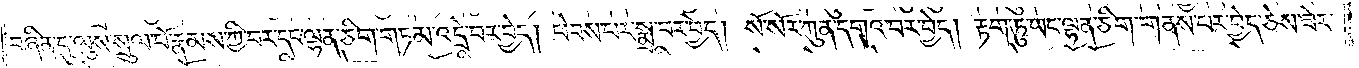བཞིན་དུ་ལུས་སྲུལ་པོ་རྣམས་ཀྱི་བར་དང་ལྷན་ཅིག་གཏམ་འདྲེ་བར་བྱེད། ཕེབས་པར་སྨྲ་བར་བྱེད། སོ་སོར་ཀུན་དགའ་བར་བྱེད། རྟག་ཏུ་ཡང་ལྷན་ཅིག་གནས་པར་བྱེད་ཅེས་ཟེར་
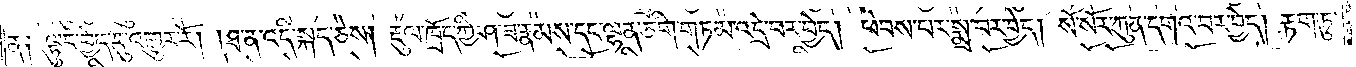ན༑ ལྟུང་བྱེད་དུ་འགྱུར་རོ། །ཐ་ན་འདི་སྐད་ཅེས། རྡུལ་ཁྲོད་ཀྱི་ཤ་ཟ་རྣམས་དང་ལྷན་ཅིག་གཏམ་འདྲེ་བར་བྱེད། ཕེབས་པར་སྨྲ་བར་བྱེད། སོ་སོར་ཀུན་དགའ་བར་བྱེད། རྟག་ཏུ་
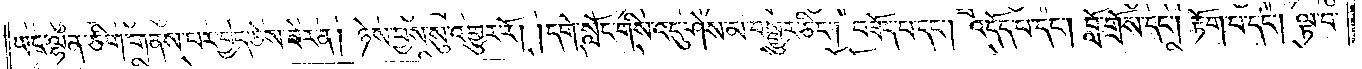ཡང་ལྷན་ཅིག་གནས་པར་བྱེད་ཅེས་ཟེར་ན། ཉེས་བྱས་སུ་འགྱུར་རོ། །དགེ་སློང་གིས་འདུ་ཤེས་མ་བསྒྱུར་ཅིང༌། བཟོད་པ་དང༌། འདོད་པ་དང༌། བློ་གྲོས་དང༌། རྟོག་པ་དང༌། ལྟ་བ་
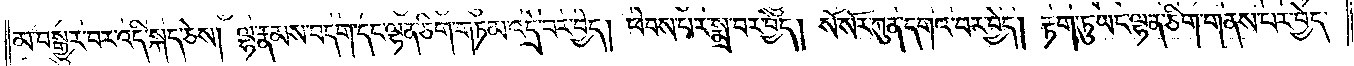མ་བསྒྱུར་བར་འདི་སྐད་ཅེས། ལྷ་རྣམས་བདག་དང་ལྷན་ཅིག་གཏམ་འདྲེ་བར་བྱེད། ཕེབས་པར་སྨྲ་བར་བྱེད། སོ་སོར་ཀུན་དགའ་བར་བྱེད། རྟག་ཏུ་ཡང་ལྷན་ཅིག་གནས་པར་བྱེད་
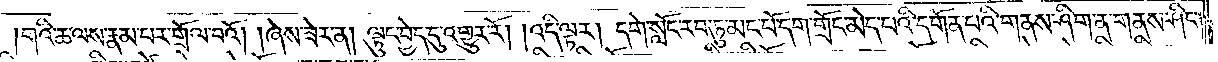གའི་ཆ་ལས་རྣམ་པར་གྲོལ་བའོ། །ཞེས་ཟེར་ན། ལྟུང་བྱེད་དུ་འགྱུར་རོ། །འདི་ལྟར། དགེ་སློང་རབ་ཏུ་མང་པོ་དག་གྲོང་མེད་པའི་དགོན་པའི་གནས་ཤིག་ན་གནས་ཤིང་
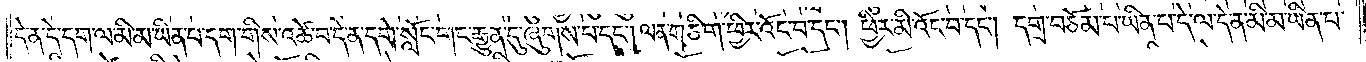དེ་ན་དེ་དག་ལ་མི་མ་ཡིན་པ་དག་གིས་འཚེ་བ་དེ་ན་དགེ་སློང་གང་རྒྱུན་དུ་ཞུགས་པ་དང༌། ལན་གཅིག་ཕྱིར་འོང་བ་དང༌། ཕྱིར་མི་འོང་བ་དང༌། དགྲ་བཅོམ་པ་ཡིན་པ་དེ་ལ་དེ་ན་མི་མ་ཡིན་པ་
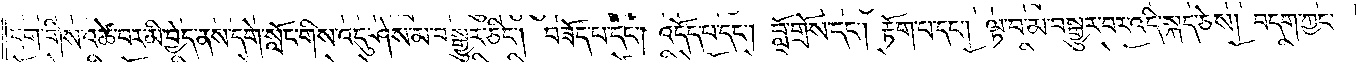དག་གིས་འཚེ་བར་མི་བྱེད་ནས་དགེ་སློང་གིས་འདུ་ཤེས་མ་བསྒྱུར་ཅིང༌། བཟོད་པ་དང༌། འདོད་པ་དང༌། བློ་གྲོས་དང༌། རྟོག་པ་དང༌། ལྟ་བ་མ་བསྒྱུར་བར་འདི་སྐད་ཅེས། བདག་ཀྱང་
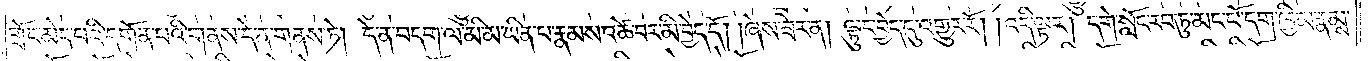གྲོང་མེད་པའི་དགོན་པའི་གནས་དེ་ན་གནས་ཏེ། དེ་ན་བདག་ལ་མི་མ་ཡིན་པ་རྣམས་འཚེ་བར་མི་བྱེད་དོ། །ཞེས་ཟེར་ན། ལྟུང་བྱེད་དུ་འགྱུར་རོ། །འདི་ལྟར། དགེ་སློང་རབ་ཏུ་མང་པོ་དག་ཁྱིམ་རྣམས་
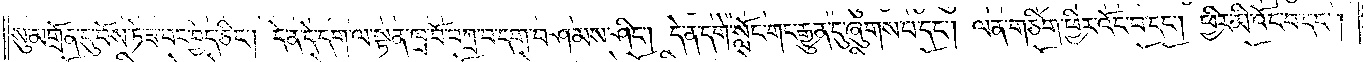སུ་མགྲོན་དུ་བོས་ཏེ་ཟ་བར་བྱེད་ཅིང༌། དེ་ན་དེ་དག་ལ་སྟན་ཁྲ་བོ་བཀྲ་བ་དག་བཤམས་ཤིང༌། དེ་ན་དགེ་སློང་གང་རྒྱུན་དུ་ཞུགས་པ་དང༌། ལན་གཅིག་ཕྱིར་འོང་བ་དང༌། ཕྱིར་མི་འོང་བ་དང༌།
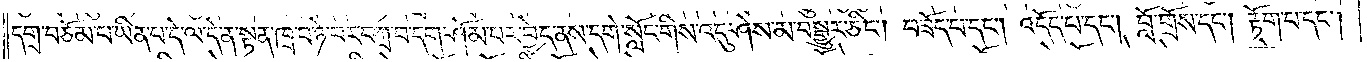དགྲ་བཅོམ་པ་ཡིན་པ་དེ་ལ་དེ་ན་སྟན་ཁྲ་བོ་ཉེ་བར་བཀྲ་བ་དག་ཤོམ་པར་བྱེད་ནས་དགེ་སློང་གིས་འདུ་ཤེས་མ་བསྒྱུར་ཅིང༌། བཟོད་པ་དང༌། འདོད་པ་དང༌། བློ་གྲོས་དང༌། རྟོག་པ་དང༌།
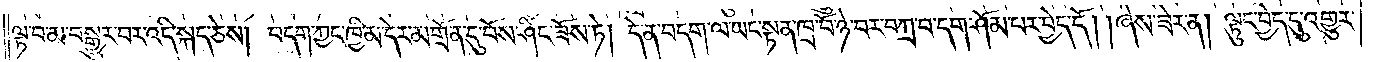ལྟ་བ་མ་བསྒྱུར་བར་འདི་སྐད་ཅེས། བདག་ཀྱང་ཁྱིམ་དེར་མགྲོན་དུ་བོས་ཤིང་ཟོས་ཏེ། དེ་ན་བདག་ལ་ཡང་སྟན་ཁྲ་བོ་ཉེ་བར་བཀྲ་བ་དག་ཤོམ་པར་བྱེད་དོ། །ཞེས་ཟེར་ན། ལྟུང་བྱེད་དུ་འགྱུར་
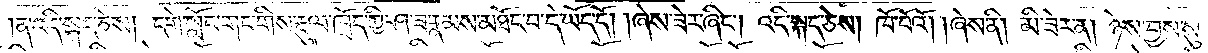ན་འདི་སྐད་ཅེས། དགེ་སློང་གང་གིས་རྡུལ་ཁྲོད་ཀྱི་ཤ་ཟ་རྣམས་མཐོང་བ་དེ་ཡོད་དོ། །ཞེས་ཟེར་ཞིང༌། འདི་སྐད་ཅེས། ཁོ་བོའོ། །ཞེས་ནི། མི་ཟེར་ན། ཉེས་བྱས་སུ་
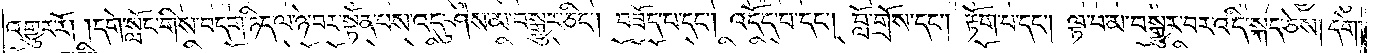འགྱུར་རོ། །དགེ་སློང་གིས་བདག་ཉིད་ལ་ཉེ་བར་སྟོན་པས་འདུ་ཤེས་མ་བསྒྱུར་ཅིང༌། བཟོད་པ་དང༌། འདོད་པ་དང༌། བློ་གྲོས་དང༌། རྟོག་པ་དང༌། ལྟ་བ་མ་བསྒྱུར་བར་འདི་སྐད་ཅེས། དགེ་
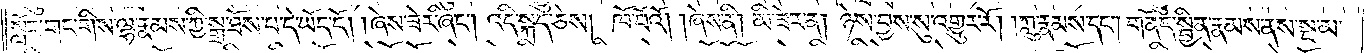སློང་གང་གིས་ལྷ་རྣམས་ཀྱི་སྒྲ་ཐོས་པ་དེ་ཡོད་དོ། །ཞེས་ཟེར་ཞིང༌། འདི་སྐད་ཅེས། ཁོ་བོའོ། །ཞེས་ནི། མི་ཟེར་ན། ཉེས་བྱས་སུ་འགྱུར་རོ། །ཀླུ་རྣམས་དང༌། གནོད་སྦྱིན་རྣམས་ནས་སྔ་མ་
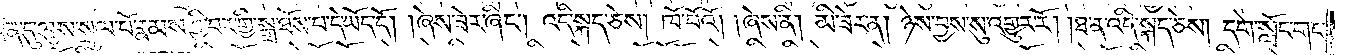བཞིན་དུ་ལུས་སྲུལ་པོ་རྣམས་ཀྱི་བར་གྱི་སྒྲ་ཐོས་པ་དེ་ཡོད་དོ། །ཞེས་ཟེར་ཞིང༌། འདི་སྐད་ཅེས། ཁོ་བོའོ། །ཞེས་ནི། མི་ཟེར་ན། ཉེས་བྱས་སུ་འགྱུར་རོ། །ཐ་ན་འདི་སྐད་ཅེས། དགེ་སློང་གང་
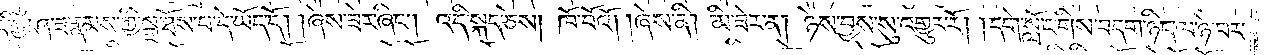ད་ཀྱི་ཤ་ཟ་རྣམས་ཀྱི་སྒྲ་ཐོས་པ་དེ་ཡོད་དོ། །ཞེས་ཟེར་ཞིང༌། འདི་སྐད་ཅེས། ཁོ་བོའོ། །ཞེས་ནི། མི་ཟེར་ན། ཉེས་བྱས་སུ་འགྱུར་རོ། །དགེ་སློང་གིས་བདག་ཉིད་ལ་ཉེ་བར་
